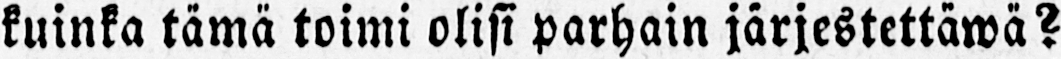kuinka tämä toimi olisi parhain järjestettäwä?
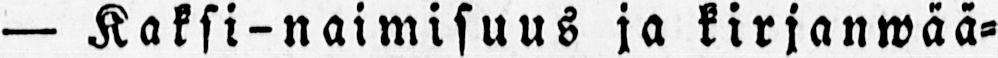— Kaksi-naimisuus ja kirjanwää-
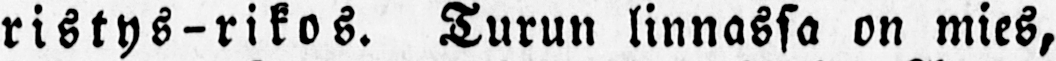ristys-rikos. Turun linnassa on mies,
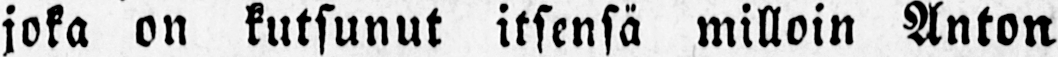joka on kutsunut itsensä milloin Anton
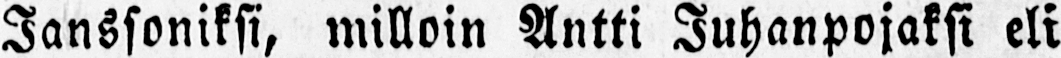Janssoniksi, milloin Antti Juhanpojaksi eli
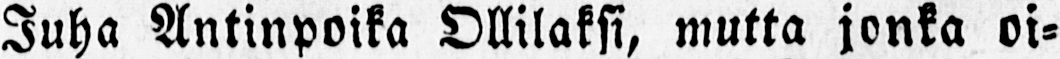Juha Antinpoika Ollilaksi, mutta jonka oi-
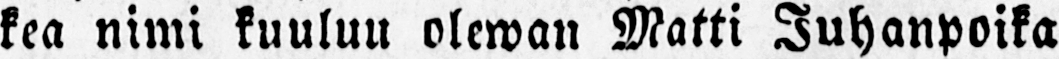kea nimi kuuluu olewan Matti Juhanpoika
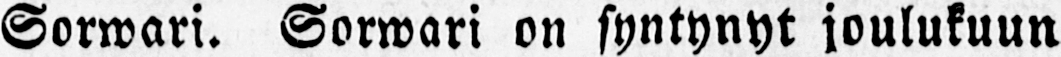Sorwari. Sorwari on syntynyt joulukuun
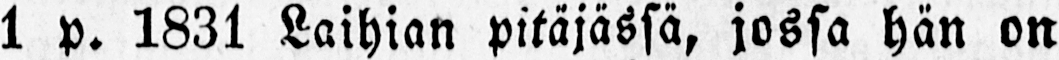1 p. 1831 Laihian pitäjässä, jossa hän on
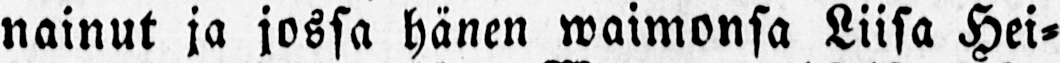nainut ja jossa hänen waimonsa Liisa Hei-
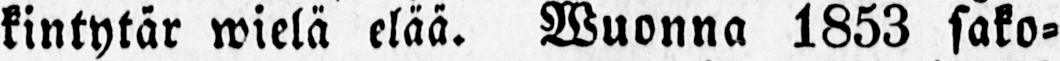kintytär wielä elää. Wuonna 1853 sako-
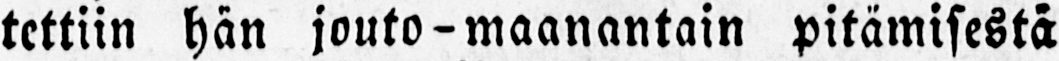tettiin hän jouto-maanantain pitämisestä
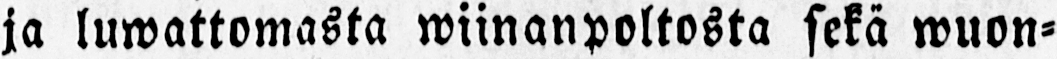ja luwattomasta wiinanpoltosta sekä wuon-
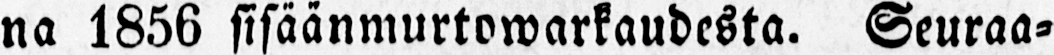na 1856 sisäänmurtowarkaudesta. Seuraa-
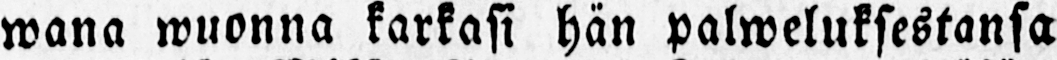wana wuonna karkasi hän palweluksestansa
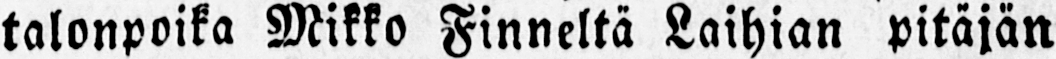talonpoika Mikko Finneltä Laihian pitäjän
